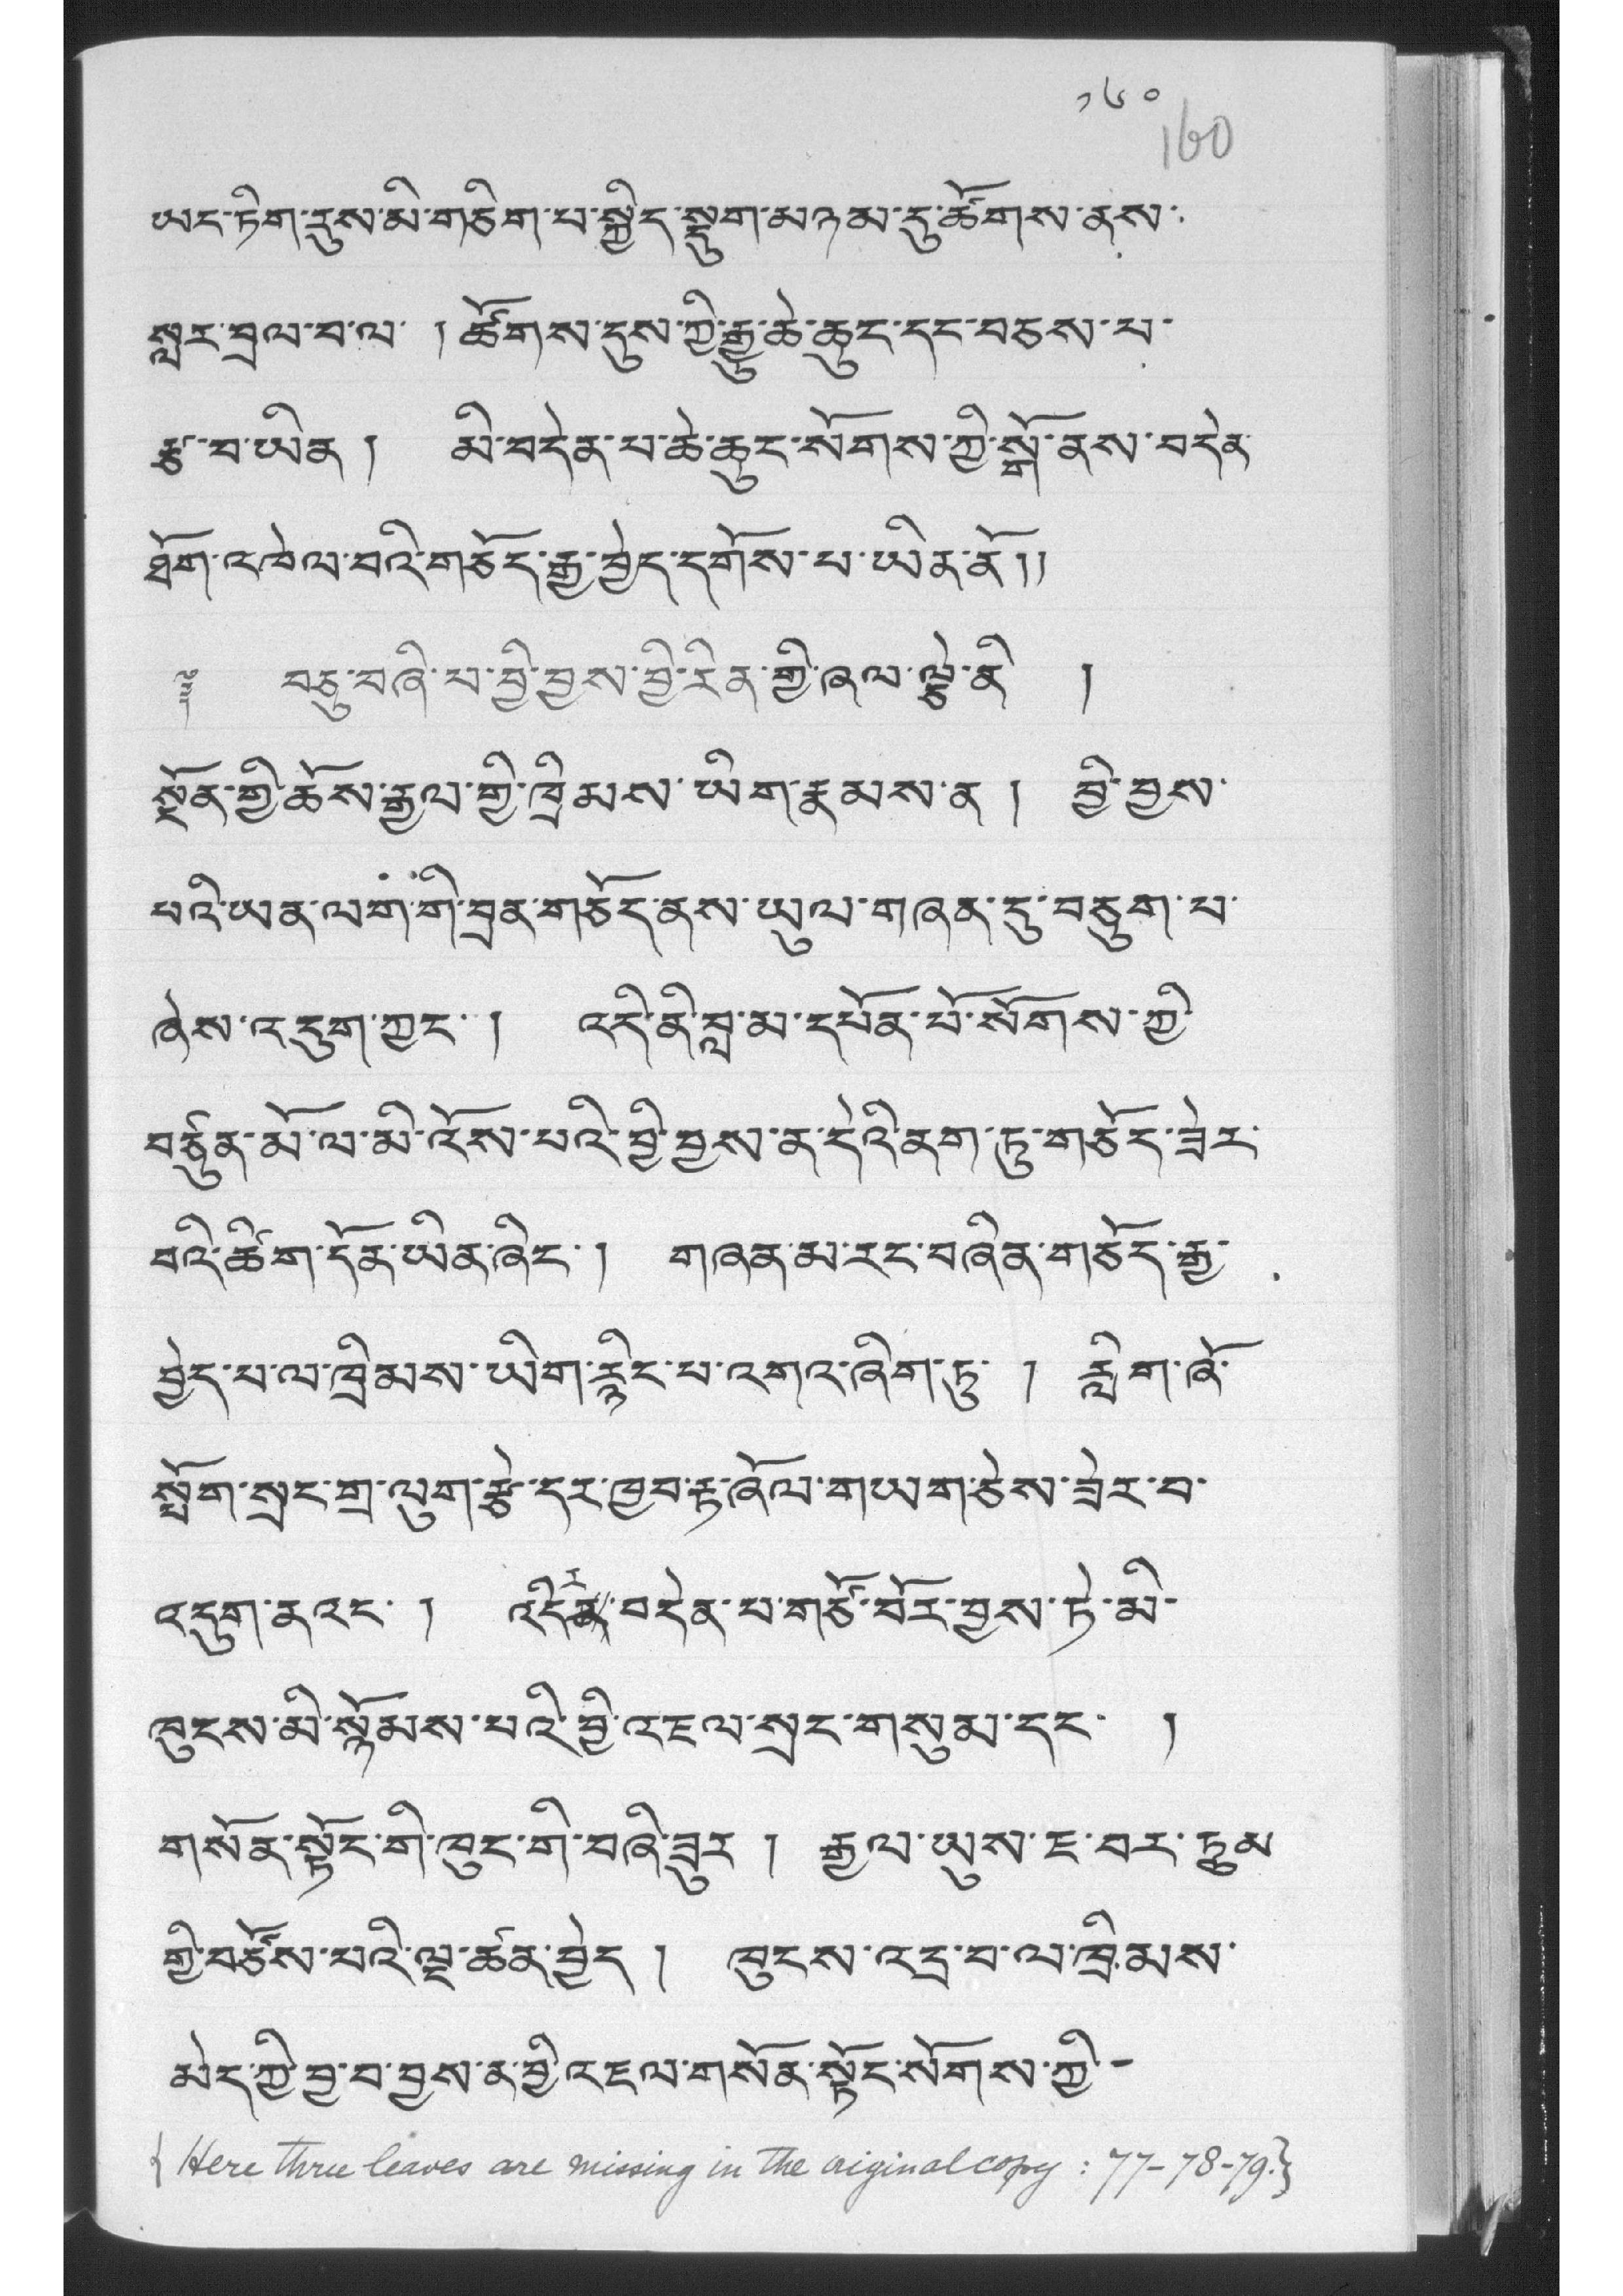༡༦༠
ཡང་ཏིག་རུས་མི་གཅིག་པ་སྐྱིད་སྡུག་མཉམ་དུ་ཚོགས་ནས་
སླར་བྲལ་བ་ལ་ ། ཚོགས་དུས་ཀྱི་རྒྱུ་ཆེ་ཆུང་དང་བཅས་པ་
རྩ་བ་ཡིན། མི་བདེན་པ་ཆེ་ཆུང་སོགས་ཀྱི་སྒོ་ནས་བདེན་
ཐོག་འཁེལ་བའི་གཅོད་རྒྱ་བྱེད་དགོས་པ་ཡིན་ནོ།།
༈ བཅུ་བཞི་པ་བྱི་བྱས་བྱི་རིན་གྱི་ཞལ་ལྕེ་ནི །
སྔོན་གྱི་ཆོས་རྒྱལ་གྱི་ཁྲིམས་ཡིག་རྣམས་ན ། བྱི་བྱས་
པའི་ཡན་ལག་གི་བྲན་གཅོད་ནས་ཡུལ་གཞན་དུ་བཅུག་པ་
ཞེས་འདུག་ཀྱང་ ། འདི་ནི་བླ་མ་དཔོན་པོ་སོགས་ཀྱི་
བཙུན་མོ་ལ་མི་འོས་པའི་བྱི་བྱས་ན་དེའི་ནག་ཏུ་གཅོད་ཟེར་
བའི་ཚིག་དོན་ཡིན་ཞིང་། གཞན་མ་རང་བཞིན་གཅོད་རྒྱ་
བྱེད་པ་ལ་ཁྲིམས་ཡིག་རྙིང་པ་འགའ་ཞིག་ཏུ་ ། རླིག་ཞོ་
སྤོག་སྲང་གྲ་ལུག་རྩེ་དར་ཁྱབ་རྟ་ཞོལ་གཡག་ཅེས་ཟེར་བ་
འདུག་ནའང་ ། འདིརན་བདེན་པ་གཙོ་བོར་བྱས་ཏེ་མི་
ཁུངས་མི་སྙོམས་པའི་བྱི་འཇལ་སྲང་གསུམ་དང་ །
གསོན་སྟོང་གི་ཁུང་གི་བཞི་ཟུར ། རྒྱལ་ཡུས་ཇ་བར་ཏུམ་
གྱི་བཙོས་པའི་ལྔ་ཚན་བྱེད ། ཁུངས་འདྲ་བ་ལ་ཁྲིམས་
མེད་ཀྱི་བྱ་བ་བྱས་ན་བྱི་འཇལ་གསོན་སྟོང་སོགས་ཀྱི་་་
{Here three leaves are missing in the original copy : 77–78–79.}
